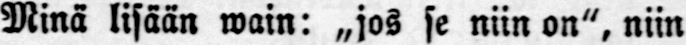Minä lisään wain: „jos se niin on", niin
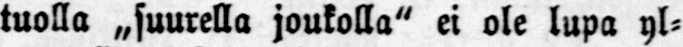tuolla „suurella joukolla" ei ole lupa yl-
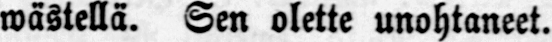wästellä. Sen olette unohtaneet.
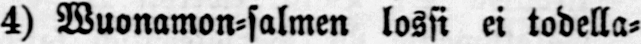4) Wuonamon-salmen lossi ei todella-
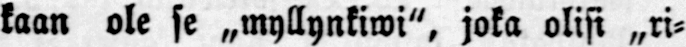kaan ole se „myllynkiwi", joka olisi „ri-
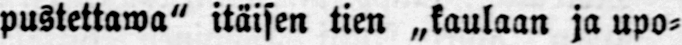pustettawa" itäisen tien „kaulaan ja upo-
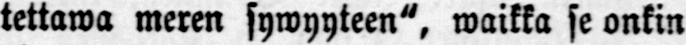tettawa meren sywyyteen", waikka se onkin
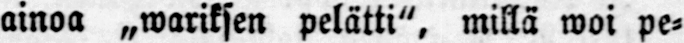ainoa „wariksen pelätti", millä woi pe-
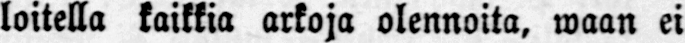loitella kaikkia arkoja olennoita, waan ei
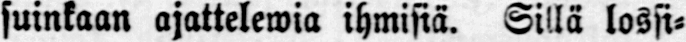suinkaan ajattelewia ihmisiä. Sillä lossi-
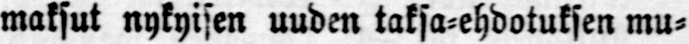maksut nykyisen uuden taksa-ehdotuksen mu-
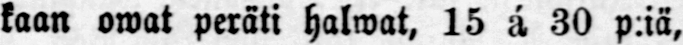kaan owat peräti halwat, 15 á 30 p:iä,
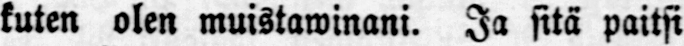kuten olen muistawinani. Ja sitä paitsi
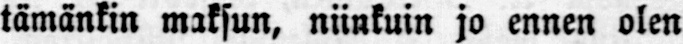tämänkin maksun, niinkuin jo ennen olen
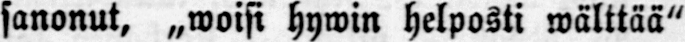sanonut, „woisi hywin helposti wälttää"
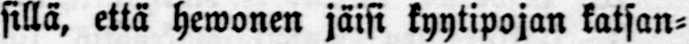sillä, että hewonen jäisi kyytipojan katsan-
